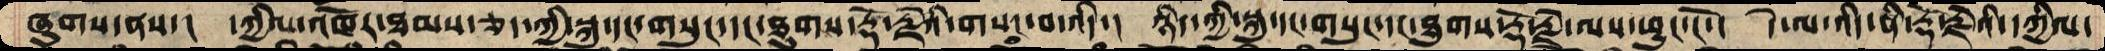ཞུགས་ནས་།  དཀྱིལ་འཁོར་ཐམས་ཅད་ཀྱི་སྐུ་དང་གསུང་དང་ཐུགས་རྡོ་རྗེའི་གསང་བ་འདི་།  ཉིད་ཀྱི་སྐུ་དང་གསུང་དང་ཐུགས་རྡོ་རྗེ་ལས་ཕྱུང་ངོ་།  དེ་ལ་འདི་ནི་རྡོ་རྗེའི་དཀྱིལ་
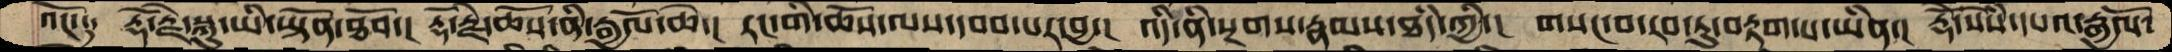འོང་༑  རྡོ་རྗེ་སྐུ་ཡི་ཡྟོན་ཐོབ་།  རྡོ་རྗེ་ཆོས་ནི་རྒྱལོ་ཆེ་།  རང་གི་ཆོས་ལས་དབབ་པར་བྱ་།  འདི་ནི་སྔགས་རྣམས་ཐདཾ་ཀྱི་།  གསང་བ་རབ་ཏུ་བརྟག་པ་ཡིན་།  རྡོེ་སེཾས་དཔའ་རྒྱལོ་
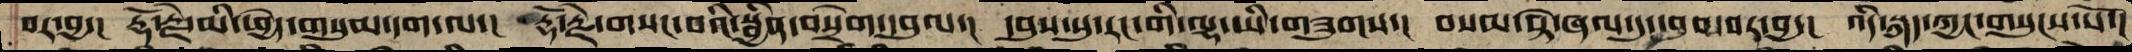བར་བྱ་།   རྡོ་རྗེ་མི་ཕྱེད་གསུམ་དག་ལ་།  རྡོ་རྗེ་གསང་བའི་སྦྱིན་བསྲེག་དབུལ་།  དབུས་སུ་རང་གི་ལྷ་ཡི་གཟུགས་།  བསམ་སྟེ་ཞལ་དུ་དབབ་པར་བྱ་།  འདི་སྐད་ཀྱང་གསུངས་སོ་།
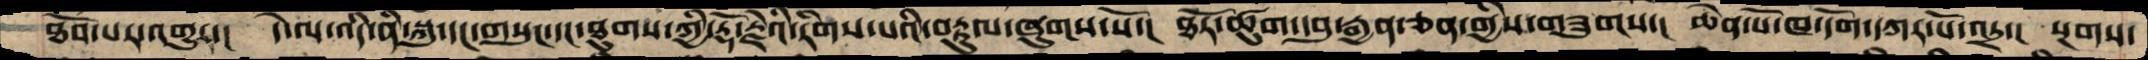ཐོབ་པར་འགྱུར་།  དེ་ལ་འདི་ནི་སྐུ་དང་གསུང་དང་ཐུགས་ཀྱི་རྡོ་རྗེའི་རིགས་པའི་བརྟུལ་ཞུགས་སོ་།  ཐོར་ཚུག་དབུ་རྒྱན་ཅན་གྱིས་གཟུགས་།  ཆེན་པོ་ཁ་དོག་དཀར་པོ་འདྲ་།  སྔགས་
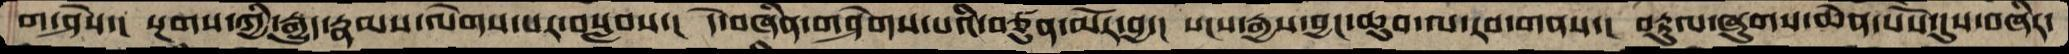ག་ཤེས་།  སྔགས་ཀྱི་རྒྱུད་རྣམས་ལེགས་པར་བསླབས་།  དེ་བཞིན་གཤེགས་པའི་བཙུན་མོར་བྱ་།  སངས་རྒྱས་བྱང་ཆུབ་ལ་རབ་གནས་།  བརྟུལ་ཞུགས་ཆེན་པོས་དུས་བཞིར་
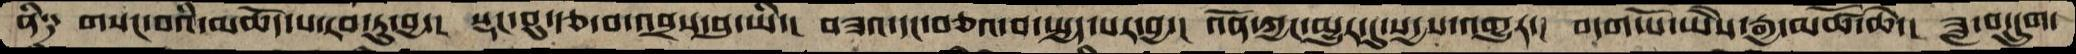ནི༑  གསང་བའི་མཆོད་པ་རབ་ཏུ་བྱ་།  སྡང་བུ་རྩ་བ་འབྲས་བུ་ཡི་།  བཟའ་དང་བཅའ་བ་སྤྱད་པར་བྱ་།  འོན་ཀྱང་མྱུར་དུ་སདྱས་འགྱུར་།  བདག་པོ་ཡཻས་རྒྱ་མཚོ་ཆེ་།  ཟླ་བ་དྲུག་
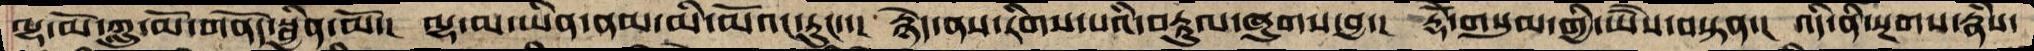ལྷ་མོ་ཀླུ་མོ་གནོད་སྦྱིན་མོ་།  ལྷ་མ་ཡིན་ནམ་མི་མོའང་རུང་་།  རྙེད་ནས་རིགས་པའི་བརྟུལ་ཞུགས་བྱ་།  རྡོེ་གསུམ་གྱི་ཡཻས་བསྟན་།  འདི་ནི་སྔགས་རྣཾས་
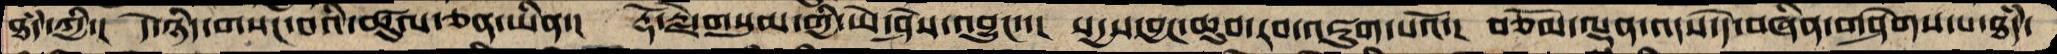ཐཾད་ཀྱི་།  དེ་ཉིད་གསང་བའི་ཚུལ་ཅན་ཡིན་།  རྡོ་རྗེ་གསུམ་གྱི་ཡེ་ཤེས་འབྱུང་་།  སདྱས་བྱང་ཆུབ་རབ་འཇུག་པའོ་།  བཅོམ་ལྡན་འདས་དེ་བཞིན་གཤེགས་པ་ཐཾད་
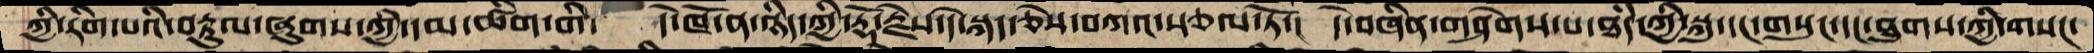ཀྱི་རིག་པའི་བརྟུལ་ཞུགས་ཀྱི་དམ་ཚིག་གི་  དེ་ཁོ་ན་ཉིད་ཀྱི་རྡོ་རྗེས་དེ་སྐད་ཅེས་བཀའ་སྩལ་ཏོ་།  དེ་བཞིན་གཤེགས་པ་ཐཾད་ཀྱི་སྐུ་དང་གསུང་དང་ཐུགས་ཀྱི་གསང་
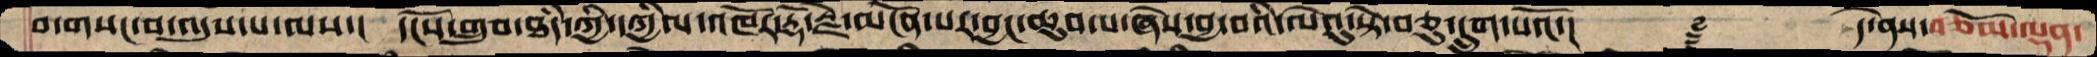བ་གསང་བ་འདུས་པ་ལས་།  དངོས་གྲུབ་ཐཾད་ཀྱི་དཀྱིལ་འཁོར་རྡོ་རྗེ་མངོན་པར་བྱང་ཆུབ་པ་ཞེས་བྱ་བའི་ལེའུ་སྟེ་བཅུ་དྲུག་པའོ་།   ࿑     དེ་ནས་བཅོམ་ལྡན་
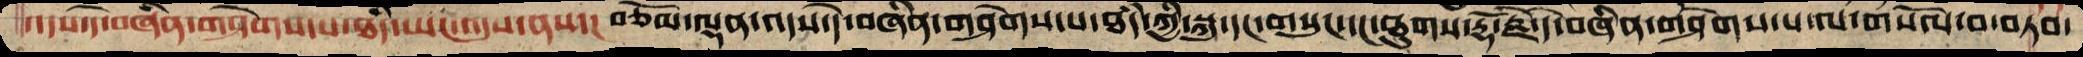འདས་དེ་བཞིན་གཤེགས་པ་ཐྃད་ཡང་འདུས་ནས་།  བཅོམ་ལྡན་འདས་དེ་བཞིན་གཤེགས་པ་ཐྃད་ཀྱི་སྐུ་དང་གསུང་དང་ཐུགས་རྡོ་རྗེ་དེ་བཞིན་གཤེགས་པ་ལ་གསོལ་བ་བཏབ་
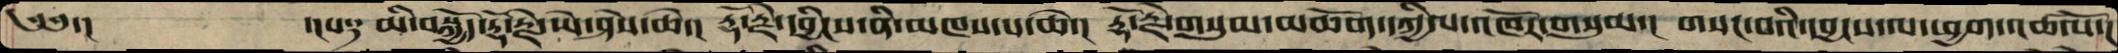༄༅་།       ་།ས༑  མི་བསྐྱོད་རྡོ་རྗེ་ཡེ་ཤེས་ཆེ་།  རྡོ་རྗེ་དབྱིངས་ནི་མཁས་པ་ཆེ་།  རྡོ་རྗེ་གསུམ་མཆོག་དཀྱིལ་འཁོར་གསུམ་།  གསང་བའི་དབྱངས་ལ་ཕྱག་འཚལོ་།
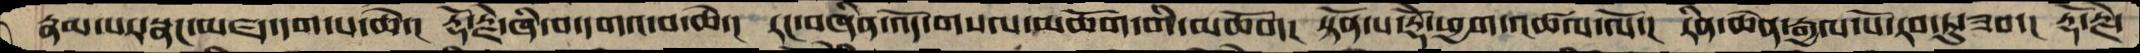རྣམ་པར་སྣང་མཛད་དག་པཆེ་།  རྡོ་རྗེ་ཞི་བ་དགའ་བ་ཆེ་།  རང་བཞིན་འདོ་གསལ་མཆོག་གི་མཆོག།  སྟོན་པ་རྡོེ་ཕྱག་འཚལ་ལོ་།  རིན་ཆེན་རྒྱལ་པོ་རབ་ཏུ་ཟབ་།  རྡོ་རྗེ་
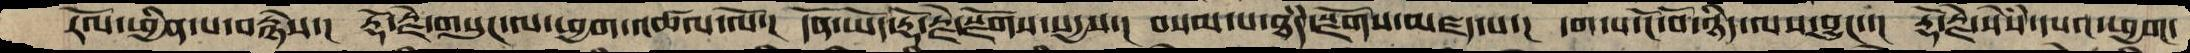རོལ་ཕྱིན་པ་བརྙེས་།  རྡོ་རྗེ་གསུང་ལ་ཕྱག་འཚལ་ལོ་།  དོན་ཡོད་རྡོ་རྗེ་སྫོགས་སདྱས་།  བསམ་པ་ཐཾད་སྫོགས་མཛད་པ་།  དག་པ་ངོ་བོ་ཉིད་ལས་བྱུང་་།  རྡོ་རྗེ་སེཾས་དཔའ་ཕྱག་
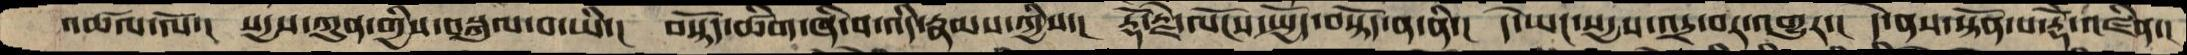འཚལ་ལོ་།  སདྱས་ཀུན་གྱིས་བསྐུལ་བ་ཡི་།  བསྟོད་ཚིག་ཞི་བ་འདི་རྣམས་ཀྱིས་།  རྡོ་རྗེ་ལོངས་སྤྱོད་བསྟོད་ན་ནི་།  དེ་ཡང་སདྱས་འདྲ་བར་འགྱུར་།  དེ་ནས་སྟོན་པ་རྡོེ་འཛིན་།
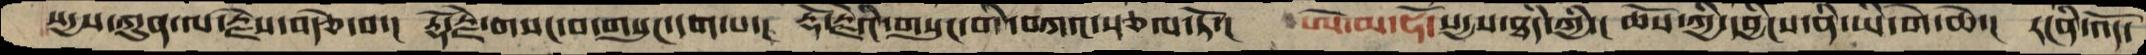སདྱས་ཀུན་ལ་རྗེས་བརྩེ་བ་།  རྡོ་རྗེ་གསང་བ་གསུང་དག་པ་།  རྡོ་རྗེ་གསུང་གི་བཀའ་སྩལ་ཏོ་།  ཨེ་མ་ཧོ་སདྱས་ཐཾད་ཀྱི་།  ཆོས་ཀྱི་དབྱིངས་ནི་ཡི་གེ་ཆེ་།  རངིན་འོད་
